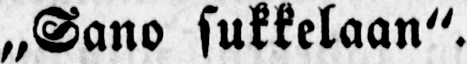„Sano sukkelaan".
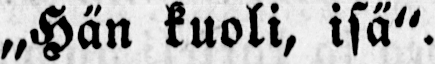„Hä n kuoli, isä ".
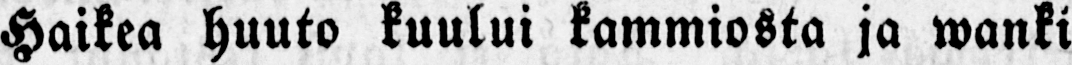Haikea huuto kuului kammiosta ja wanki
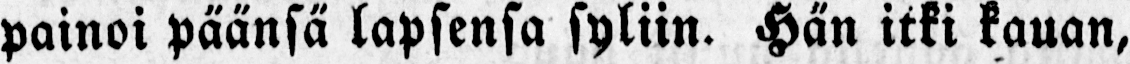painoi päänsä lapsensa syliin. Hän itki kauan,
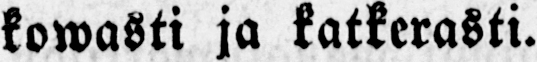kowasti ja katkerasti.
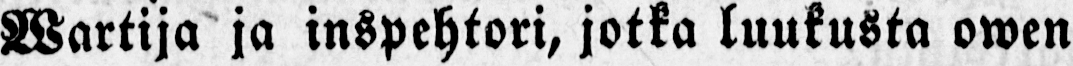Wartija ja inspehtori, jotka luukusta owen
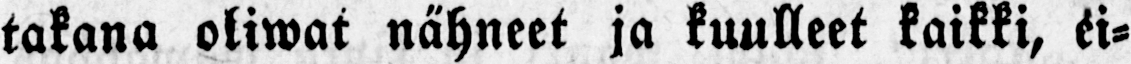takana oliwat nä hneet ja kuulleet kaikki, ei-
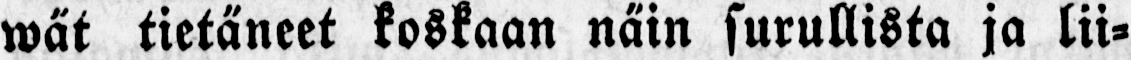wät tietä neet koskaan nä in surullista ja lii-
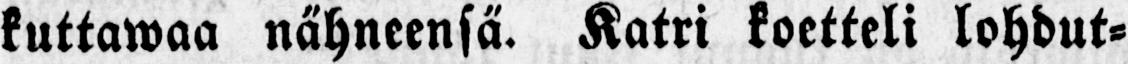kuttawaa nähneensä . Katri kortteli lohdut-
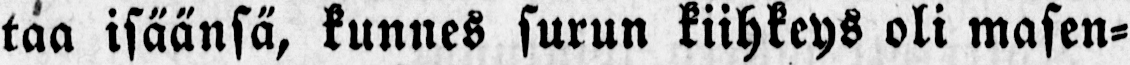taa isäänsä , kunnes surun kiihkeys oli masen-
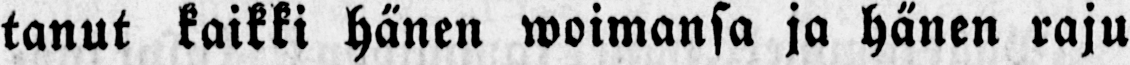tanut kaikki hä nen woimansa ja hänen raju
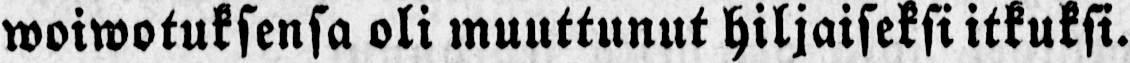woiwotuksensa oli muuttunut hiljaiseksi itkuksi.
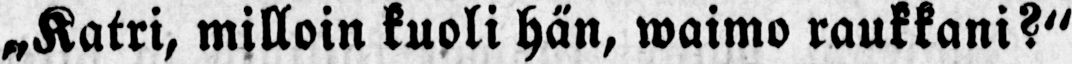„Katri, milloin kuoli hän, waimo raukkani?"
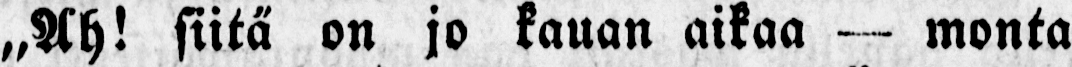„Ah! siitä on jo kauan aikaa — monta
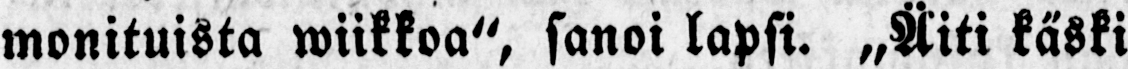monituista unikkoa", sanoi lapsi. „Äiti kä ski
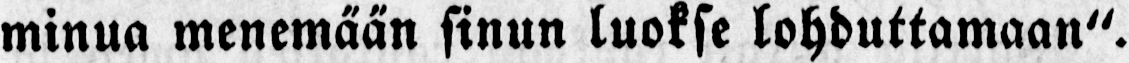minua menemää n sinun luokse lohduttamaan".
